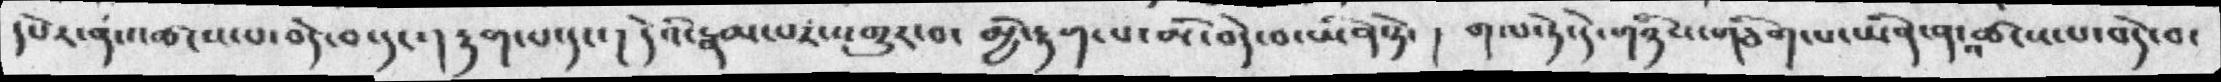དཔེར་ན་འཚངས་པ་བདེ་བ་དང་། རྟག་པ་དང་།  དེའི་རྣམ་པར་འགྱུར་བ་ མྱི་རྟག་པ་མི་བདེ་བ་ཡིན་ཏེ་ །  གལ་ཏེ་གཉིས་གཅིག་པ་ཡིན་ཡིན་ན་འཚངས་པ་བདེ་བ་
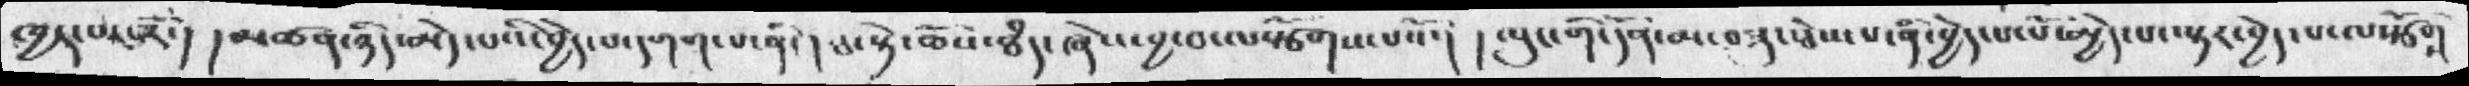ཁྱད་པར་རོ་།  ། མཚན་ཉིད་མེད་པའི་བྱེད་པ་དགག་པ་ནི་།  ཐ་སྟེ་ཆོས་ཐཾད་ཞེས་བྱ་བ་ལསྩོགས་པའོ་།  ། ལུང་གི་དོན་མ་བཟུང་ཅེས་པ་ནི་བྱེད་པ་པོ་མྱེད་པ་ལྟར་བྱེད་པ་ལསྩོགས་
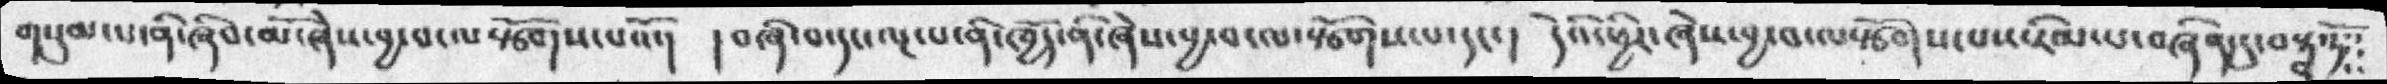གསུམ་པ་ནི་ཞིབ་མོ་ཞེས་བྱ་བ་ལསྩོགས་པའོ་།   ། བཞི་བ་དང་ལྔ་པ་ནི་ཁྱེད་ནི་ཞེས་བྱ་བ་ལསྩོགས་པ་དང་།   དེའི་ཕྱིར་ཞེས་བྱ་བ་ལསྩོགས་པས་རིམ་པས་རིམ་པ་བཞིན་དུ་བསྟན་ཏོ་
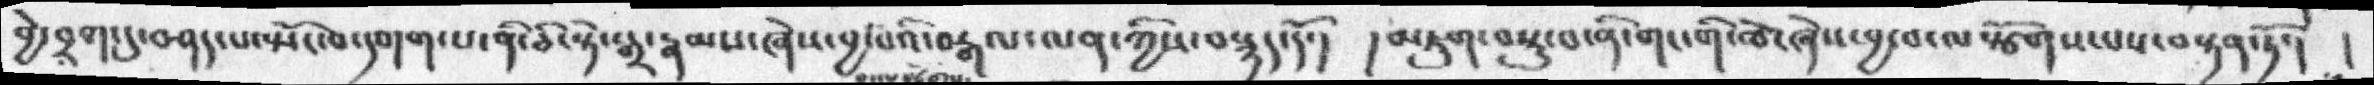བྱེ་བྲག་དུ་བཤད་ཡོང་བ་དགག་པ་ནི་ཅི་སྟེ་སྒྲ་རྣམས་ཞེས་བྱ་པའི་བརྒལ་ལན་ཀྱིས་བསྙད་དོ་།   ། མཇུག་བསྡུ་བ་ནི་གང་གི་ཚེ་ཞེས་བྱ་བ་ལསྩོགས་པས་བསྟན་ཏོ་།  །
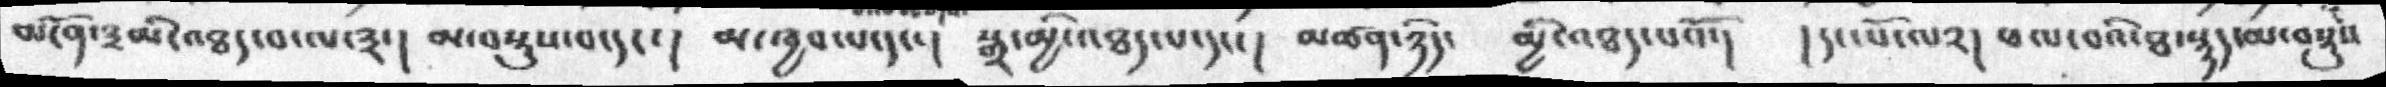མངོན་༣མི་འཐད་བ་ལ་༣་།  མ་བསྡུས་བ་དང་།   མ་ཁྱབ་པ་དང་།   སྒྲ་མྱི་འཐད་པ་དངད་།    མཚན་ཉིད་    མྱི་འཐད་པའོ་།   ། དང་པོ་ལ༢། ཕལ་བའི་ཐ་སྙད་ལ་བསྡུས་
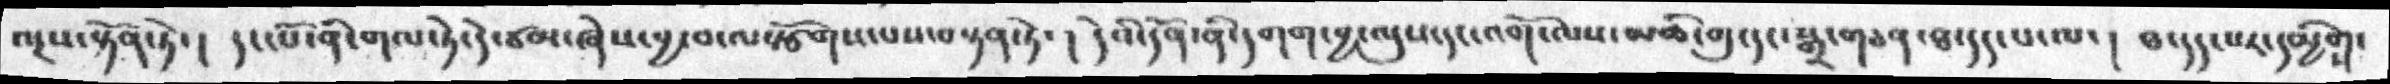ལྔས་སྟོན་ཏེ་།   དང་པོ་ནི་གལ་ཏེ་དེ་ཙམ་ཞེས་བྱ་ལསྩོགས་པས་བསྟན་ཏེ་ །  དེའི་དོན་ནི་དགག་བྱ་ལུས་དང་འགོ་ལས་མཆི་གུ་དདང་སྒྲ་གཅན་ཐ་དད་པ་ལ་  ། ཐ་དད་པར་དམྱིགས་
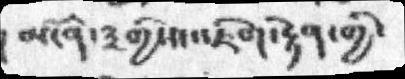མངོན་༣གྱིས་འཇིག་རྟེན་གྱི་
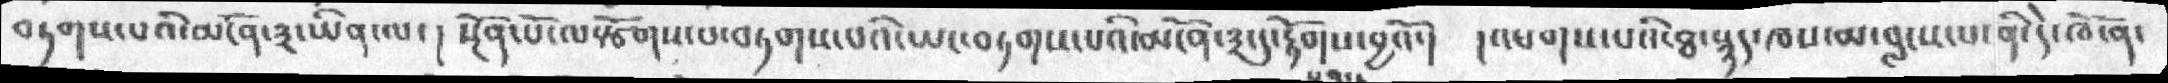བཏག་པའི་མངོན་༣་ཡིན་ལ་།   སྔོན་པོ་ལསྩོགས་པ་བཏགས་པའི་ཡང་བཏགས་པའི་མངོན་༣་དུ་རྟོགས་བྱའོ་།   །འཕགས་པའི་ཐ་སྙད་ཁས་མ་བླངས་པ་ནི་དེ་ཁོ་ན་
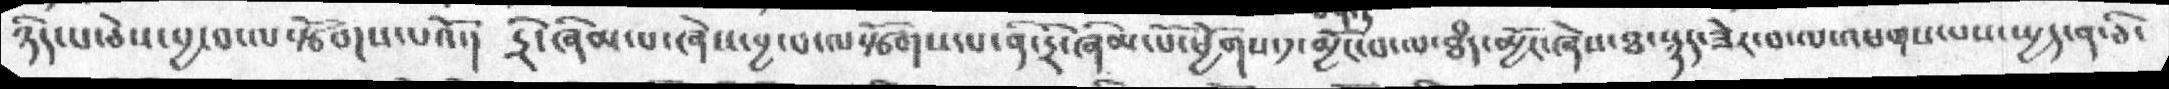ཉིང་པ་ཅེས་བྱ་བ་ལསྩོགས་པའོ་།   དྲི་ཞིམ་པ་ཞེས་བྱ་བ་ལསྩོགས་པ་ནི་དྲི་ཞིམ་པོ་ཕྱོགས་༡་མྱོང་པ་ཐཾད་མྱོང་ཞེས་ཐ་སྙད་ཟེར་བ་ལ་འཕགས་པས་ཡྱད་ན་ཅི་
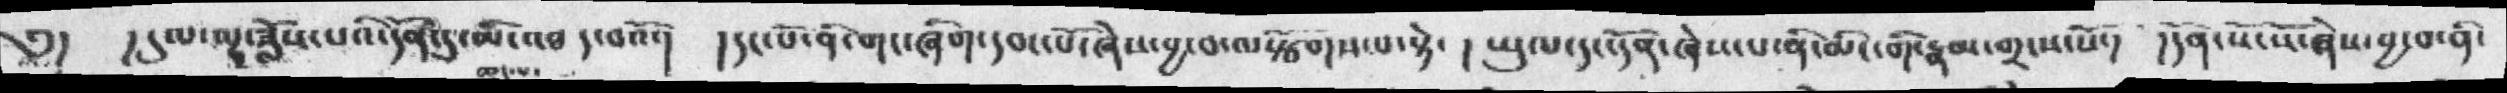༄།    ། དུལ་ལྔ་ཟློས་པའི་དོན་དུ་མི་འཐད་པའོ་།  །དང་པོ་ནི་གང་ཞིག་དབང་པོ་ཞེས་བྱ་ལསྩོགས་པ་སྟེ་  ། ཡུལ་དང་དོན་ཞེས་པ་ནི་མིང་གི་རྣམ་གྲངས་སོ་། །དོན་སོ་སོ་ཞེས་བྱ་བ་ནི་
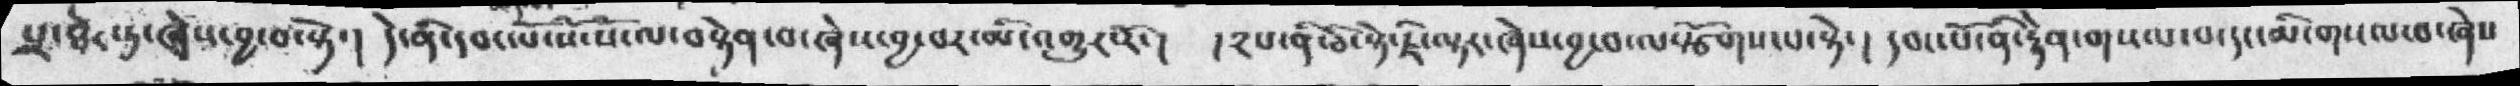པྲ་ཐེར་སྟ་ཞེས་བྱ་བ་སྟེ་།   དེ་ནི་་དབང་པོ་སོ་སོ་ལ་བསྟེན་པ་ཞེས་བྱ་བར་མི་འགྱུར་རོ་།   ། ༢པ་ནི་ཅི་སྟེ་ཇི་ལྟེ་ཞེས་བྱ་བ་ལསྩོགས་པ་སྟེ་།   དབང་པོ་ནི་རྟེན་གསལ་བ་དང་མི་གསལ་བ་ཞེས་
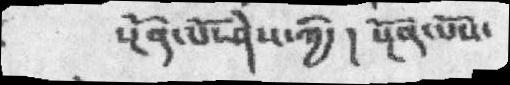སྔོན་པོ་ཤེས་ཀྱི་། སྔོན་པོས་
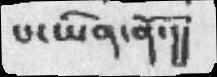པ་ཡིན་ནོ་།།
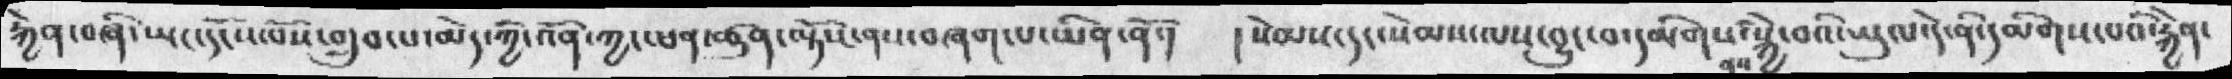རྐྱེན་བཞི་ཡང་དངོས་པོས་གྲུབ་པ་ལམེད་ཀྱི་འོན་ཀྱང་ཡན་ཚུན་ལྟོས་ནས་བཞག་པ་ཡིན་ནོ་།   ། སེམས་དང་སེམས་ལས་བྱུང་བ་དམིགས་ནས་སྐྱེ་བའི་ཡུལ་དེ་ནི་དམིགས་པའི་རྐྱེན་
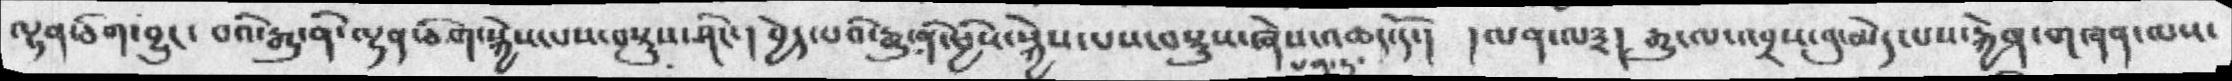ལྷན་ཅིག་བྱུང་བའི་རྒྱུ་ནི་ལྷན་ཅིག་སྐྱེས་པས་བསྡུས་ཤིང་། བྱེད་པའི་རྒྱུ་ནི་ཕྱིས་སྐྱེས་པས་བསྡུས་ཞེས་འཆད་དོ་།   །ལན་ལ༣། རྒྱུ་ལ་འབྲས་བུ་མེད་པས་རྐྱེན་གཞན་ལས་
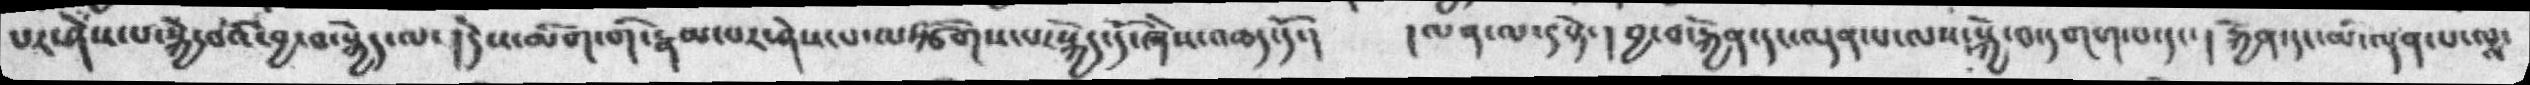པར་ཤེས་པ་སྐྱེ་བོའི་བྱ་བ་སྐྱེད་ལ་།  དེས་མིག་གི་རྣམ་པར་ཤེས་པ་ལསྩོགས་པ་སྐྱེད་དོ་ཞེས་འཆད་དོ་།   །ལན་ལ་༤སྟེ་།  བྱ་བ་རྐྱེན་དང་ལྡན་པ་ལས་སྐྱེ་བ་དགག་པ་དང་།  རྐྱེན་དང་མི་ལྡན་པ་ལས་
